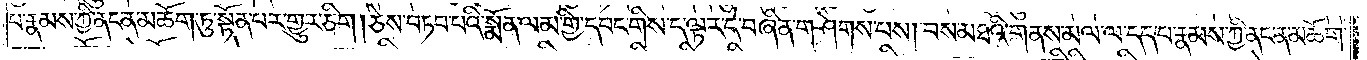པ་རྣམས་ཀྱི་ནང་ན་མཆོག་ཏུ་སྟོན་པར་གྱུར་ཅིག །ཅེས་བཏབ་པའི་སྨོན་ལམ་གྱི་དབང་གིས་ད་ལྟར་དེ་བཞིན་གཤེགས་པས། བས་མཐའི་གནས་མལ་ལ་དད་པ་རྣམས་ཀྱི་ནང་ན་མཆོག་
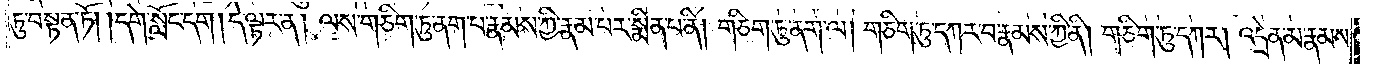ཏུ་བསྟན་ཏོ། །དགེ་སློང་དག །དེ་ལྟར་ན། ལས་གཅིག་ཏུ་ནག་པ་རྣམས་ཀྱི་རྣམ་པར་སྨིན་པ་ནི། གཅིག་ཏུ་ནག་ལ། གཅིག་ཏུ་དཀར་བ་རྣམས་ཀྱི་ནི། གཅིག་ཏུ་དཀར། འདྲེན་མ་རྣམས་
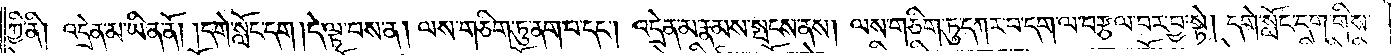ཀྱི་ནི། འདྲེན་མ་ཡིན་ནོ། །དགེ་སློང་དག །དེ་ལྟ་བས་ན། ལས་གཅིག་ཏུ་ནག་པ་དང༌། འདྲེན་མ་རྣམས་སྤངས་ནས། ལས་གཅིག་ཏུ་དཀར་བ་དག་ལ་བརྩལ་བར་བྱ་སྟེ། དགེ་སློང་དག་གིས་
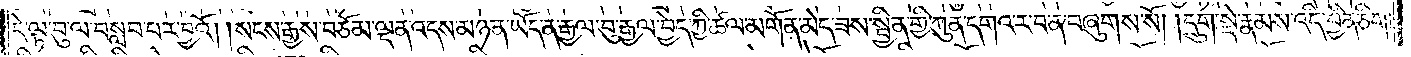དེ་ལྟ་བུ་ལ་བསླབ་པར་བྱའོ། །སངས་རྒྱས་བཅོམ་ལྡན་འདས་མཉན་ཡོད་ན་རྒྱལ་བུ་རྒྱལ་བྱེད་ཀྱི་ཚལ་མགོན་མེད་ཟས་སྦྱིན་གྱི་ཀུན་དགའ་ར་བ་ན་བཞུགས་སོ། །དྲུག་སྡེ་རྣམས་འདི་བྱིན་ཅིག།
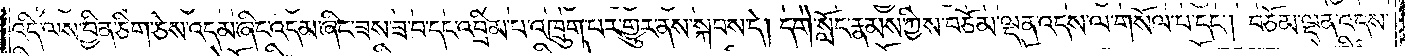འདི་ལས་བྱིན་ཅིག་ཅེས་འདམ་ཞིང་འདམ་ཞིང་ཟས་ཟ་བ་དང་འབྲིམ་པ་འཁྲུག་པར་གྱུར་ནས་སྐབས་དེ། དགེ་སློང་རྣམས་ཀྱིས་བཅོམ་ལྡན་འདས་ལ་གསོལ་པ་དང༌། བཅོམ་ལྡན་འདས་
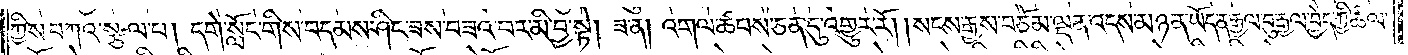ཀྱིས་བཀའ་སྩལ་པ། དགེ་སློང་གིས་བདམས་ཤིང་ཟས་བཟའ་བར་མི་བྱ་སྟེ། ཟ་ན། འགལ་ཚབས་ཅན་དུ་འགྱུར་རོ། །སངས་རྒྱས་བཅོམ་ལྡན་འདས་མཉན་ཡོད་ན་རྒྱལ་བུ་རྒྱལ་བྱེད་ཀྱི་ཚལ་
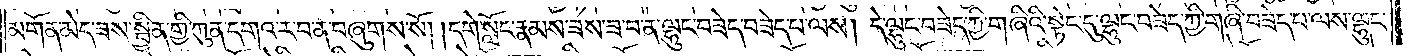མགོན་མེད་ཟས་སྦྱིན་གྱི་ཀུན་དགའ་ར་བ་ན་བཞུགས་སོ། །དགེ་སློང་རྣམས་ཟས་ཟ་བ་ན་ལྷུང་བཟེད་བཟེད་པ་ལས། དེ་ལྷུང་བཟེད་ཀྱི་གཞིའི་སྟེང་དུ་ལྷུང་བཟེད་ཀྱི་གཞི་བཟེད་པ་ལས་ལྷུང་
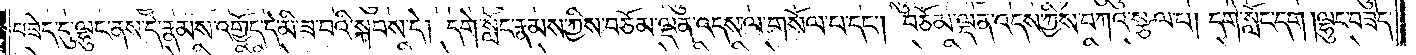བཟེད་དུ་ལྷུང་ནས་དེ་རྣམས་འགྱོད་དེ་མི་ཟ་བའི་སྐབས་དེ། དགེ་སློང་རྣམས་ཀྱིས་བཅོམ་ལྡན་འདས་ལ་གསོལ་པ་དང༌། བཅོམ་ལྡན་འདས་ཀྱིས་བཀའ་སྩལ་པ། དགེ་སློང་དག །ལྷུང་བཟེད་
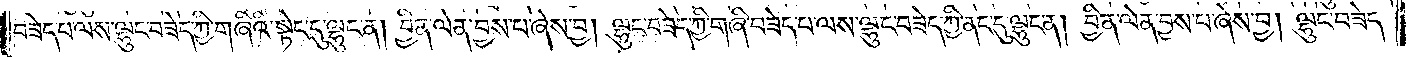བཟེད་པ་ལས་ལྷུང་བཟེད་ཀྱི་གཞིའི་སྟེང་དུ་ལྷུང་ན། བྱིན་ལེན་བྱས་པ་ཞེས་བྱ། ལྷུང་བཟེད་ཀྱི་གཞི་བཟེད་པ་ལས་ལྷུང་བཟེད་ཀྱི་ནང་དུ་ལྷུང་ན། བྱིན་ལེན་བྱས་པ་ཞེས་བྱ། ལྷུང་བཟེད་
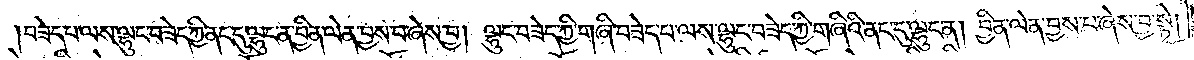བཟེད་པ་ལས་ལྷུང་བཟེད་ཀྱི་ནང་དུ་ལྷུང་ན་བྱིན་ལེན་བྱས་པ་ཞེས་བྱ། ལྷུང་བཟེད་ཀྱི་གཞི་བཟེད་པ་ལས་ལྷུང་བཟེད་ཀྱི་གཞིའི་ནང་དུ་ལྷུང་ན། བྱིན་ལེན་བྱས་པ་ཞེས་བྱ་སྟེ།
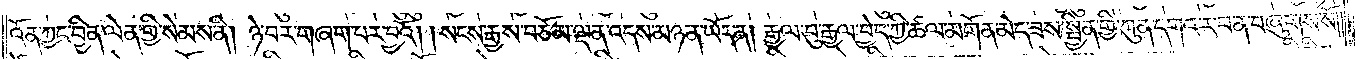འོན་ཀྱང་བྱིན་ལེན་གྱི་སེམས་ནི། ཉེ་བར་གཞག་པར་བྱའོ། །སངས་རྒྱས་བཅོམ་ལྡན་འདས་མཉན་ཡོད་ན། རྒྱལ་བུ་རྒྱལ་བྱེད་ཀྱི་ཚལ་མགོན་མེད་ཟས་སྦྱིན་གྱི་ཀུན་དགའ་ར་བ་ན་བཞུགས་སོ། །
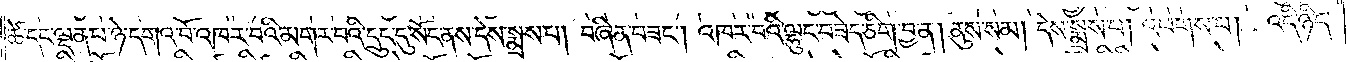ཚེ་དང་ལྡན་པ་ཉེ་དགའ་བོ་འཁར་བའི་མགར་པའི་དྲུང་དུ་སོང་ནས་དེས་སྨྲས་པ། བཞིན་བཟང༌། འཁར་བའི་ལྷུང་བཟེད་ཅིག་བྱ་ན། ནུས་སམ། དེས་སྨྲས་པ། འཕགས་པ། འདི་ཉིད་
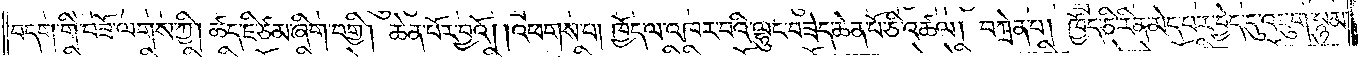བདག་གི་བཟོ་ལགས་ཀྱི། ཚད་ཇི་ཙམ་ཞིག་བགྱི། ཆེན་པོར་བྱའོ། །འཕགས་པ། ཁྱོད་ལ་འཁར་བའི་ལྷུང་བཟེད་ཆེན་པོ་ཅི་འཚལ། བཀྲེན་པ། ཁྱོད་ཅི་རིན་མེད་པར་བྱེད་དུ་འཇུག་སྙམ་
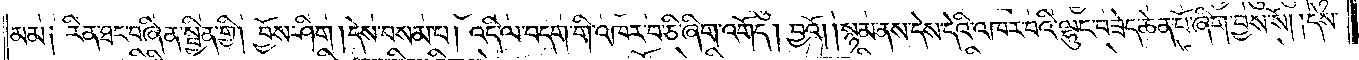མམ༑ རིན་ཐང་བཞིན་སྦྱིན་གྱི། བྱོས་ཤིག །དེས་བསམ་པ། འདི་ལ་བདག་གི་འཁར་བ་ཅི་ཞིག་འགོད། བྱའོ། །སྙམ་ནས་དེས་དེའི་འཁར་བའི་ལྷུང་བཟེད་ཆེན་པོ་ཞིག་བྱས་སོ། །དེས་
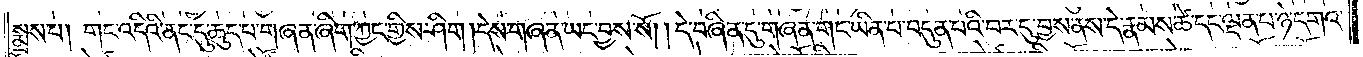སྨྲས་པ། གང་འདིའི་ནང་དུ་ཆུད་པ་གཞན་ཞིག་ཀྱང་གྱིས་ཤིག །དེས་གཞན་ཡང་བྱས་སོ། །དེ་བཞིན་དུ་གཞན་གང་ཡིན་པ་བདུན་པའི་བར་དུ་བྱས་ནས་དེ་རྣམས་ཚེ་དང་ལྡན་པ་ཉེ་དགའ་
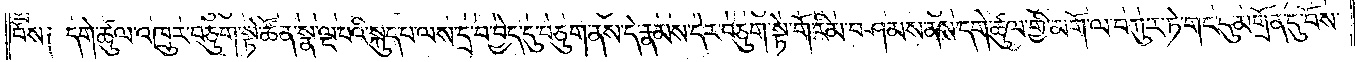བོས༑ དགེ་ཚུལ་འཁྲུར་བཅུག་སྟེ་ཚོན་སྣ་ལྔ་པའི་སྐུད་པ་ལས་དྲ་བ་བྱེད་དུ་བཅུག་ནས་དེ་རྣམས་དེར་བཅུག་སྟེ་གོ་རིམ་བཤམས་ནས་དགེ་ཚུལ་གྱི་མགོ་ལ་བཀུར་ཏེ་གང་དུ་མགྲོན་དུ་བོས་
